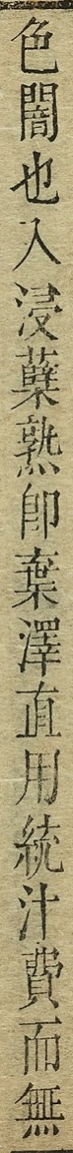色闇也入浸蘖熟即棄澤直用統汁費而無
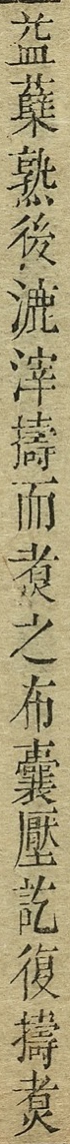益蘖熟後漉滓擣而煮之布囊壓訖復檮煮
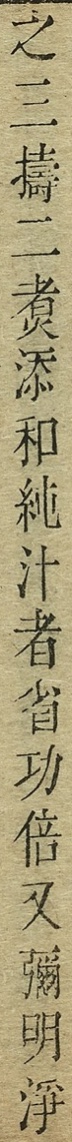之三擣二煮添和純汁者省功倍又彌明淨
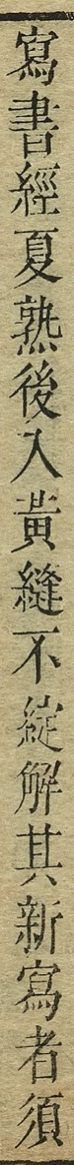寫書經夏熟後入黃縫不綻解其新寫者須
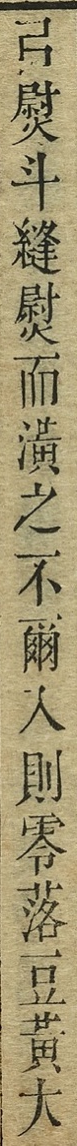以熨斗縫熨而潢之不爾入則零落豆黃大
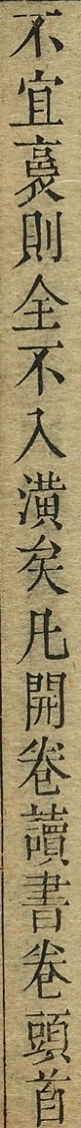不宜裛則全不入潢矣凡開卷讀書卷頭首
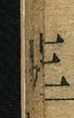三
